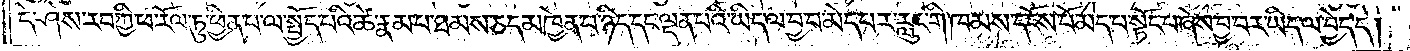དེ་ཤེས་རབ་ཀྱི་ཕ་རོལ་ཏུ་ཕྱིན་པ་ལ་སྤྱོད་པའི་ཚེ་རྣམ་པ་ཐམས་ཅད་མཁྱེན་པ་ཉིད་དང་ལྡན་པའི་ཡིད་ལ་བྱ་བ་མེད་པར་རླུང་གི་ཁམས་དངོས་པོ་མེད་པ་སྟོང་པ་ཞེས་བྱ་བར་ཡིད་ལ་བྱེད་དེ།
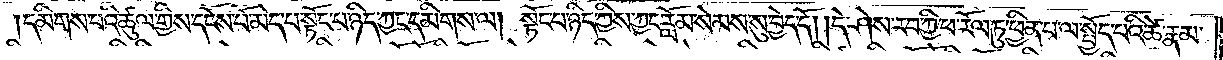དམིགས་པའི་ཚུལ་གྱིས་དངོས་པོ་མེད་པ་སྟོང་པ་ཉིད་ཀྱང་དམིགས་ལ། སྟོང་པ་ཉིད་ཀྱིས་ཀྱང་རློམ་སེམས་སུ་བྱེད་དོ། །དེ་ཤེས་རབ་ཀྱི་ཕ་རོལ་ཏུ་ཕྱིན་པ་ལ་སྤྱོད་པའི་ཚེ་རྣམ་
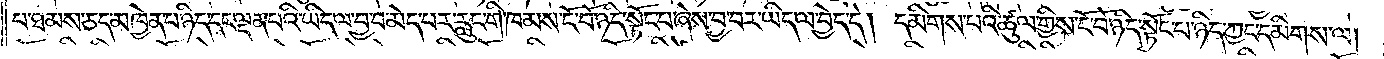པ་ཐམས་ཅད་མཁྱེན་པ་ཉིད་དང་ལྡན་པའི་ཡིད་ལ་བྱ་བ་མེད་པར་རླུང་གི་ཁམས་ངོ་བོ་ཉིད་སྟོང་པ་ཞེས་བྱ་བར་ཡིད་ལ་བྱེད་དེ། དམིགས་པའི་ཚུལ་གྱིས་ངོ་བོ་ཉིད་སྟོང་པ་ཉིད་ཀྱང་དམིགས་ལ།
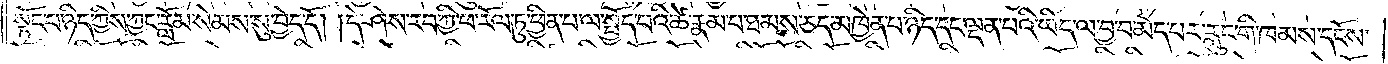སྟོང་པ་ཉིད་ཀྱིས་ཀྱང་རློམ་སེམས་སུ་བྱེད་དོ། །དེ་ཤེས་རབ་ཀྱི་ཕ་རོལ་ཏུ་ཕྱིན་པ་ལ་སྤྱོད་པའི་ཚེ་རྣམ་པ་ཐམས་ཅད་མཁྱེན་པ་ཉིད་དང་ལྡན་པའི་ཡིད་ལ་བྱ་བ་མེད་པར་རླུང་གི་ཁམས་དངོས་
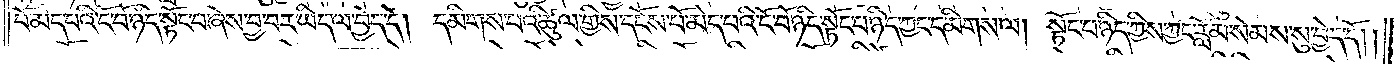པོ་མེད་པའི་ངོ་བོ་ཉིད་སྟོང་པ་ཞེས་བྱ་བར་ཡིད་ལ་བྱེད་དེ། དམིགས་པའི་ཚུལ་གྱིས་དངོས་པོ་མེད་པའི་ངོ་བོ་ཉིད་སྟོང་པ་ཉིད་ཀྱང་དམིགས་ལ། སྟོང་པ་ཉིད་ཀྱིས་ཀྱང་རློམ་སེམས་སུ་བྱེད་དོ༎
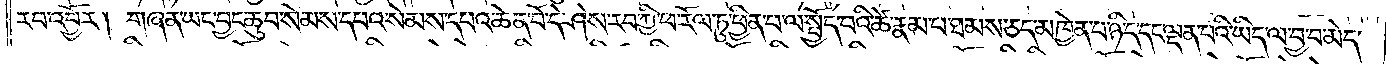རབ་འབྱོར། གཞན་ཡང་བྱང་ཆུབ་སེམས་དཔའ་སེམས་དཔའ་ཆེན་པོ་དེ་ཤེས་རབ་ཀྱི་ཕ་རོལ་ཏུ་ཕྱིན་པ་ལ་སྤྱོད་པའི་ཚེ་རྣམ་པ་ཐམས་ཅད་མཁྱེན་པ་ཉིད་དང་ལྡན་པའི་ཡིད་ལ་བྱ་བ་མེད་
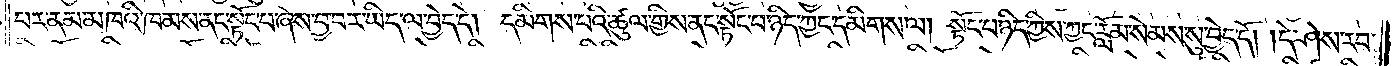པར་ནམ་མཁའི་ཁམས་ནང་སྟོང་པ་ཞེས་བྱ་བར་ཡིད་ལ་བྱེད་དེ། དམིགས་པའི་ཚུལ་གྱིས་ནང་སྟོང་པ་ཉིད་ཀྱང་དམིགས་ལ། སྟོང་པ་ཉིད་ཀྱིས་ཀྱང་རློམ་སེམས་སུ་བྱེད་དོ། །དེ་ཤེས་རབ་
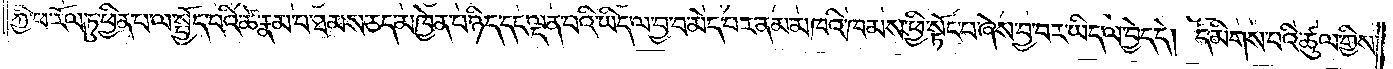ཀྱི་ཕ་རོལ་ཏུ་ཕྱིན་པ་ལ་སྤྱོད་པའི་ཚེ་རྣམ་པ་ཐམས་ཅད་མཁྱེན་པ་ཉིད་དང་ལྡན་པའི་ཡིད་ལ་བྱ་བ་མེད་པར་ནམ་མཁའི་ཁམས་ཕྱི་སྟོང་པ་ཞེས་བྱ་བར་ཡིད་ལ་བྱེད་དེ། དམིགས་པའི་ཚུལ་གྱིས་
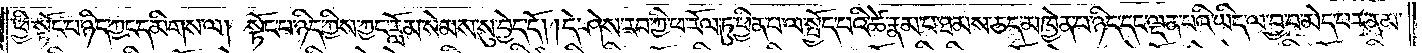ཕྱི་སྟོང་པ་ཉིད་ཀྱང་དམིགས་ལ། སྟོང་པ་ཉིད་ཀྱིས་ཀྱང་རློམ་སེམས་སུ་བྱེད་དོ། །དེ་ཤེས་རབ་ཀྱི་ཕ་རོལ་ཏུ་ཕྱིན་པ་ལ་སྤྱོད་པའི་ཚེ་རྣམ་པ་ཐམས་ཅད་མཁྱེན་པ་ཉིད་དང་ལྡན་པའི་ཡིད་ལ་བྱ་བ་མེད་པར་ནམ་
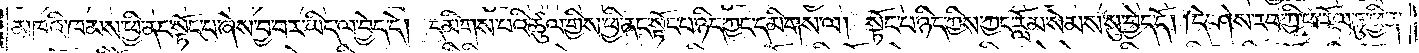མཁའི་ཁམས་ཕྱི་ནང་སྟོང་པ་ཞེས་བྱ་བར་ཡིད་ལ་བྱེད་དེ། དམིགས་པའི་ཚུལ་གྱིས་ཕྱི་ནང་སྟོང་པ་ཉིད་ཀྱང་དམིགས་ལ། སྟོང་པ་ཉིད་ཀྱིས་ཀྱང་རློམ་སེམས་སུ་བྱེད་དོ། །དེ་ཤེས་རབ་ཀྱི་ཕ་རོལ་ཏུ་ཕྱིན་
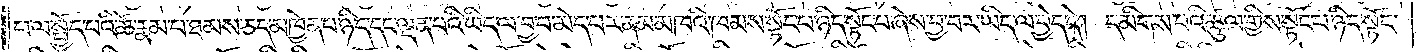པ་ལ་སྤྱོད་པའི་ཚེ་རྣམ་པ་ཐམས་ཅད་མཁྱེན་པ་ཉིད་དང་ལྡན་པའི་ཡིད་ལ་བྱ་བ་མེད་པར་ནམ་མཁའི་ཁམས་སྟོང་པ་ཉིད་སྟོང་པ་ཞེས་བྱ་བར་ཡིད་ལ་བྱེད་དེ། དམིགས་པའི་ཚུལ་གྱིས་སྟོང་པ་ཉིད་སྟོང་
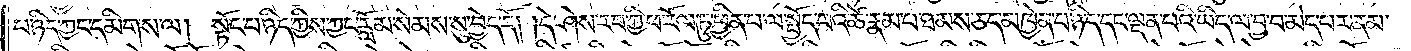པ་ཉིད་ཀྱང་དམིགས་ལ། སྟོང་པ་ཉིད་ཀྱིས་ཀྱང་རློམ་སེམས་སུ་བྱེད་དོ། །དེ་ཤེས་རབ་ཀྱི་ཕ་རོལ་ཏུ་ཕྱིན་པ་ལ་སྤྱོད་བའི་ཚེ་རྣམ་པ་ཐམས་ཅད་མཁྱེན་པ་ཉིད་དང་ལྡན་པའི་ཡིད་ལ་བྱ་བ་མེད་པར་ནམ་
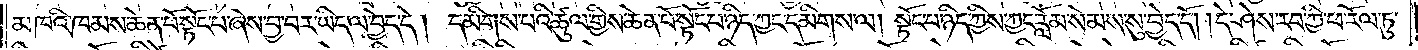མཁའི་ཁམས་ཆེན་པོ་སྟོང་པ་ཞེས་བྱ་བར་ཡིད་ལ་བྱེད་དེ། དམིགས་པའི་ཚུལ་གྱིས་ཆེན་པོ་སྟོང་པ་ཉིད་ཀྱང་དམིགས་ལ། སྟོང་པ་ཉིད་ཀྱིས་ཀྱང་རློམ་སེམས་སུ་བྱེད་དོ། །དེ་ཤེས་རབ་ཀྱི་ཕ་རོལ་ཏུ་
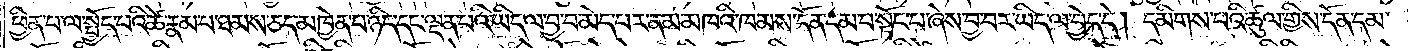ཕྱིན་པ་ལ་སྤྱོད་པའི་ཚེ་རྣམ་པ་ཐམས་ཅད་མཁྱེན་པ་ཉིད་དང་ལྡན་པའི་ཡིད་ལ་བྱ་བ་མེད་པར་ནམ་མཁའི་ཁམས་དོན་དམ་བ་སྟོང་པ་ཞེས་བྱ་བར་ཡིད་ལ་བྱེད་དེ། དམིགས་པའི་ཚུལ་གྱིས་དོན་དམ་
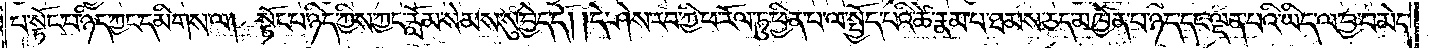པ་སྟོང་པ་ཉིད་ཀྱང་དམིགས་ལ། སྟོང་པ་ཉིད་ཀྱིས་ཀྱང་རློམ་སེམས་སུ་བྱེད་དོ། །དེ་ཤེས་རབ་ཀྱི་ཕ་རོལ་ཏུ་ཕྱིན་པ་ལ་སྤྱོད་པའི་ཚེ་རྣམ་པ་ཐམས་ཅད་མཁྱེན་པ་ཉིད་དང་ལྡན་པའི་ཡིད་ལ་བྱ་བ་མེད་
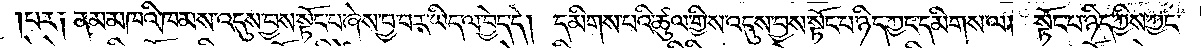པར༑ ནམ་མཁའི་ཁམས་འདུས་བྱས་སྟོང་པ་ཞེས་བྱ་བར་ཡིད་ལ་བྱེད་དེ། དམིགས་པའི་ཚུལ་གྱིས་འདུས་བྱས་སྟོང་པ་ཉིད་ཀྱང་དམིགས་ལ། སྟོང་པ་ཉིད་ཀྱིས་ཀྱང་
